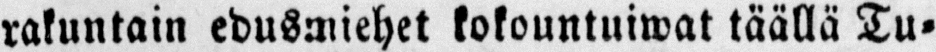rakuntain edusmiehet kokountuiwat täällä Tu-
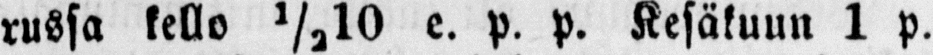russa kello '/,10 e. p. p. Kesäkuun 1 p.
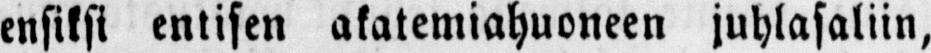ensiksi entisen akatemiahuoneen juhlasaliin,
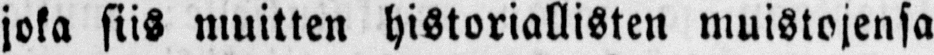joka siis muitten historiallisten muistojensa
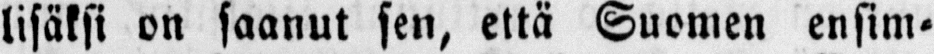lisäksi on saanut sen, että Suomen ensim-
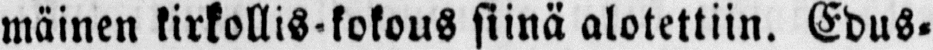mäinen kirkollis-kokous siinä alotettiin. Edus-
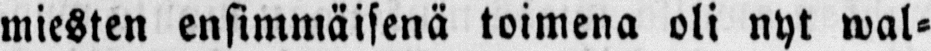miesten ensimmäisenä toimena oli nyt wal-
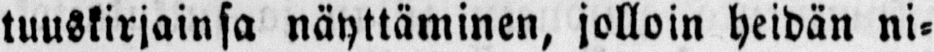tuuskirjainsa näyttäminen, jolloin heidän ni-
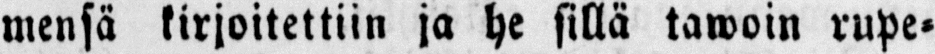mensä kirjoitettiin ja he sillä tawoin rupe-
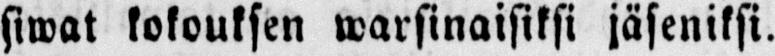siwat kokouksen warsinaisiksi jäseniksi.
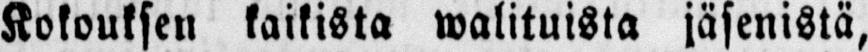Kokouksen kaikista walituista jäsenistä,
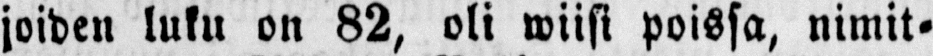joiden luku on 82, oli wiisi poissa, nimit-
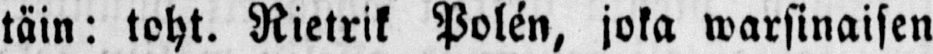täin: toht. Rietrik joka warsinaisen
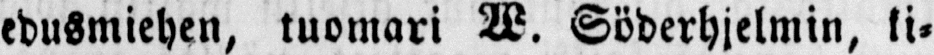edusmiehen, tuomari W. Söderhjelmin, ki-
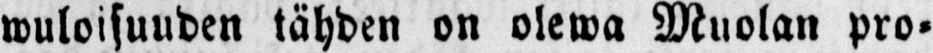wuloisuuden tähden on olewa Muolan pro-
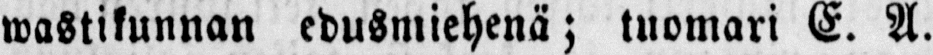wastikunnan edusmiehenä; tuomari E. A.
